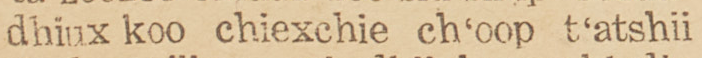dhiux koo chiexchie ch'oop t'atshii
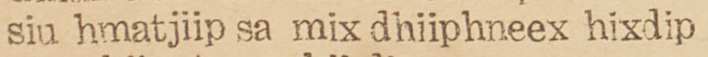siu hmatjiip sa mix dhiiphneex hixdip
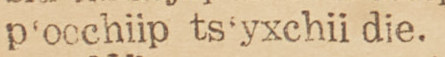p'occhiip ts'yxchii die.
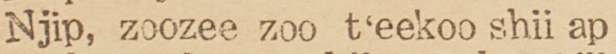Njip, zoozee zoo t'eekoo shii ap
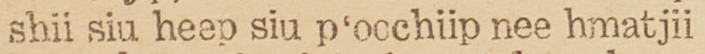shii siu heep siu p'occhiip nee hmatjii
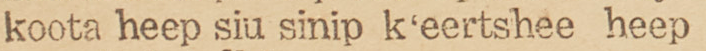koota heep siu sinip k'eertshee heep
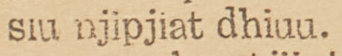siu njipjiat dhiuu.
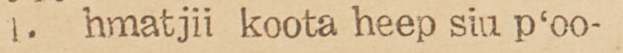1. hmatjii koota heep siu p'oo-
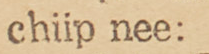chiip nee:
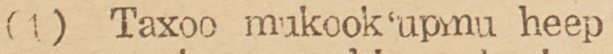(1) Taxoo mukook'upmu heep
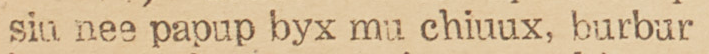siu nee papup byx mu chiuux, burbur
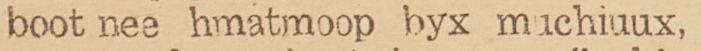boot nee hmatmoop byx muchiuux,
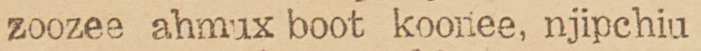zoozee ahmux boot koonee, njipchiu
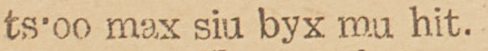ts'oo max siu byx mu hit.
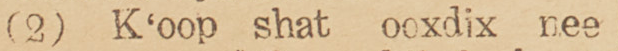(2) K'oop shat ooxdix nee
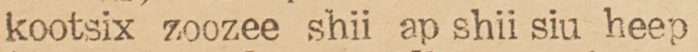kootsix zoozee shii ap shii siu heep
